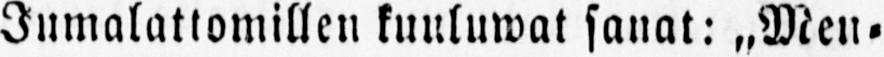Jumalattomillen kuuluwat sanat: „Men-
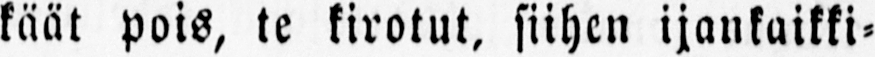käät pois, te kirotut, siihen ijankaikki-
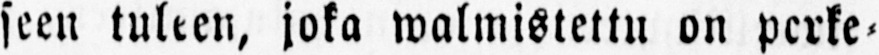seen tuleen, joka walmistettu on perke-
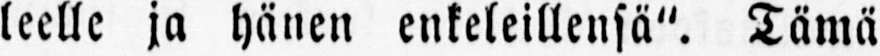leelle ja hänen enkeleillensä". Tämä
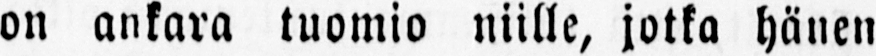on ankara tuomio niille, jotka hänen
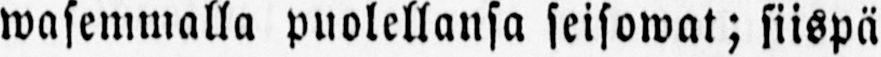wasemmalla puolellansa seisowat; siispä
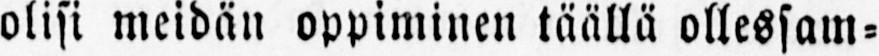olisi meidän oppiminen täällä ollessam-
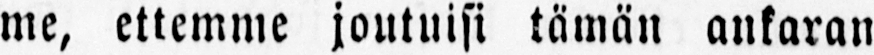me, ettemme joutuisi tämän ankaran
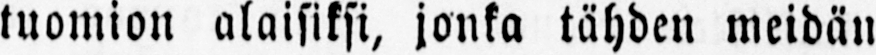tuomion alaisiksi, jonka tähden meidän
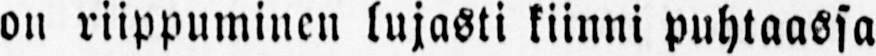on riippuminen lujasti kiinni puhtaassa
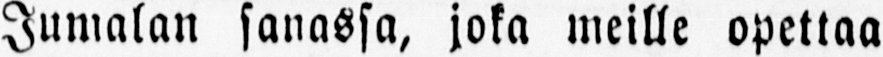Jumalan sanassa, joka meille opettaa
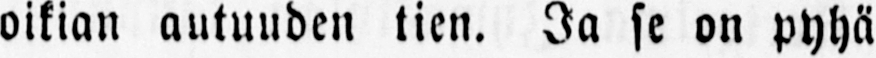oikian autuuden tien. Ja se on pyhä
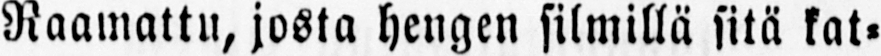Raamattu, josta hengen silmillä sitä kat-
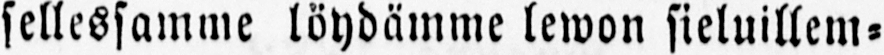sellessamme löydämme lewon sieluillem-
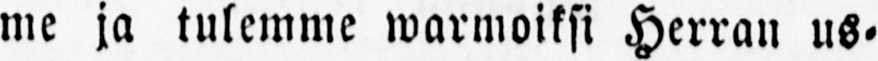me ja tulemme warmoiksi Herran us-
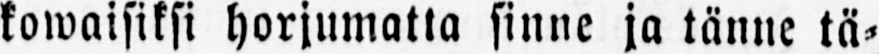kowaisiksi horjumatta sinne ja tänne tä-
